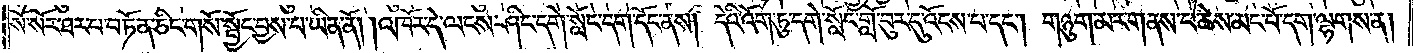སོ་སོར་ཐར་པ་བཏོན་ཅིང་གསོ་སྦྱོང་བྱས་པ་ཡིན་ནོ། །འཁོར་དེ་ལངས་ཤིང་དགེ་སློང་དག་དོང་ནས། དེའི་འོག་ཏུ་དགེ་སློང་གློ་བུར་དུ་འོངས་པ་དང༌། གཉུག་མར་གནས་པ་ཆེས་མང་པོ་དག་ལྷགས་ན།
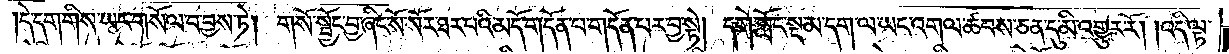།དེ་དག་གིས་ཡང་གསོལ་བ་བྱས་ཏེ། གསོ་སྦྱོང་བྱ་ཞིང་སོ་སོར་ཐར་པའི་མདོ་གདོན་པ་གདོན་པར་བྱ་སྟེ། དགེ་སློང་སྔ་མ་དག་ལ་ཡང་འགལ་ཚབས་ཅན་དུ་མི་འགྱུར་རོ། །འདི་ལྟ་
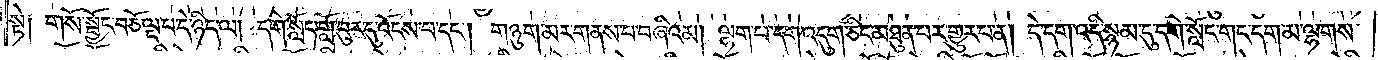སྟེ༑ གསོ་སྦྱོང་བཅོ་ལྔ་པ་དེ་ཉིད་ལ། དགེ་སློང་གློ་བུར་དུ་འོངས་པ་དང༌། གཉུག་མར་གནས་པ་བཞིའམ། ལྷག་པ་དག་འདུག་ཅིང་མཐུན་པར་གྱུར་པ་ན། དེ་དག་འདི་སྙམ་དུ་དགེ་སློང་གང་དག་མ་ལྷགས་
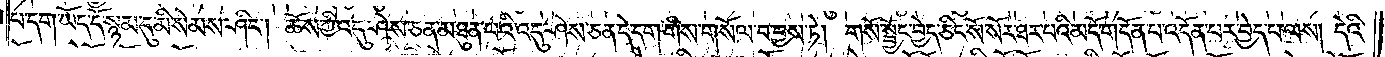པ་དག་ཡོད་དོ་སྙམ་དུ་མི་སེམས་ཤིང༌། ཆོས་ཀྱི་འདུ་ཤེས་ཅན་མཐུན་པའི་འདུ་ཤེས་ཅན་དེ་དག་གིས་གསོལ་བ་བྱས་ཏེ། གསོ་སྦྱོང་བྱེད་ཅིང་སོ་སོར་ཐར་པའི་མདོ་གདོན་པ་འདོན་པར་བྱེད་པ་ལས། དེའི་
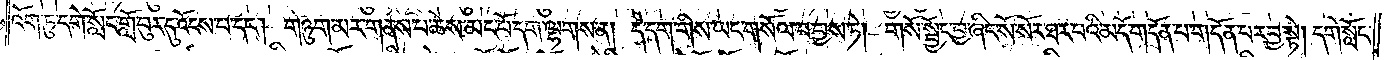འོག་ཏུ་དགེ་སློང་གློ་བུར་དུ་འོངས་པ་དང༌། གཉུག་མར་གནས་པ་ཆེས་མང་པོ་དག་ལྷགས་ན། དེ་དག་གིས་ཡང་གསོལ་བ་བྱས་ཏེ། གསོ་སྦྱོང་བྱ་ཞིང་སོ་སོར་ཐར་པའི་མདོ་གདོན་པ་གདོན་པར་བྱ་སྟེ། དགེ་སློང་
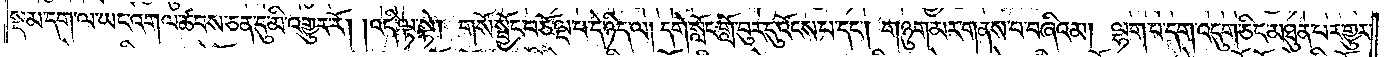སྔ་མ་དག་ལ་ཡང་འགལ་ཚབས་ཅན་དུ་མི་འགྱུར་རོ། །འདི་ལྟ་སྟེ། གསོ་སྦྱོང་བཅོ་ལྔ་པ་དེ་ཉིད་ལ། དགེ་སློང་གློ་བུར་དུ་འོངས་པ་དང༌། གཉུག་མར་གནས་པ་བཞིའམ། ལྷག་པ་དག་འདུག་ཅིང་མཐུན་པར་གྱུར་
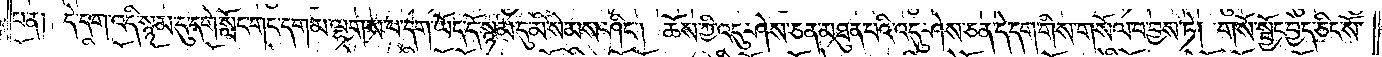པ་ན། དེ་དག་འདི་སྙམ་དུ་དགེ་སློང་གང་དག་མ་ལྷགས་པ་དག་ཡོད་དོ་སྙམ་དུ་མི་སེམས་ཤིང༌། ཆོས་ཀྱི་འདུ་ཤེས་ཅན་མཐུན་པའི་འདུ་ཤེས་ཅན་དེ་དག་གིས་གསོལ་བ་བྱས་ཏེ། གསོ་སྦྱོང་བྱེད་ཅིང་སོ་
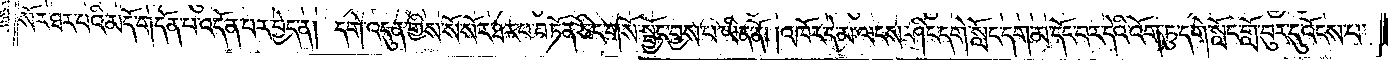སོར་ཐར་པའི་མདོ་གདོན་པ་འདོན་པར་བྱེད་ན། དགེ་འདུན་གྱིས་སོ་སོར་ཐར་པ་བཏོན་ཅིང་གསོ་སྦྱོང་བྱས་པ་ཡིན་ནོ། །འཁོར་དེ་མ་ལངས་ཤིང་དགེ་སློང་དག་མ་དོང་བར་དེའི་འོག་ཏུ་དགེ་སློང་གློ་བུར་དུ་འོངས་པ་
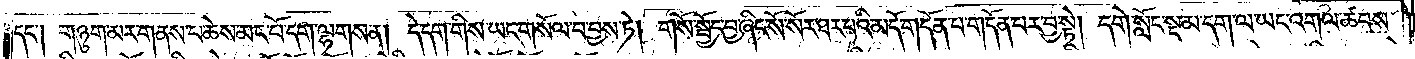དང༌། གཉུག་མར་གནས་པ་ཆེས་མང་པོ་དག་ལྷགས་ན། དེ་དག་གིས་ཡང་གསོལ་བ་བྱས་ཏེ། གསོ་སྦྱོང་བྱ་ཞིང་སོ་སོར་ཐར་པའི་མདོ་གདོན་པ་གདོན་པར་བྱ་སྟེ། དགེ་སློང་སྔ་མ་དག་ལ་ཡང་འགལ་ཚབས་
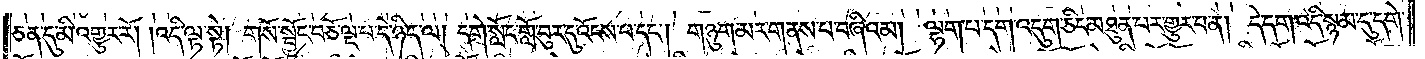ཅན་དུ་མི་འགྱུར་རོ། །འདི་ལྟ་སྟེ། གསོ་སྦྱོང་བཅོ་ལྔ་པ་དེ་ཉིད་ལ། དགེ་སློང་གློ་བུར་དུ་འོངས་པ་དང༌། གཉུག་མར་གནས་པ་བཞིའམ། ལྷག་པ་དག་འདུག་ཅིང་མཐུན་པར་གྱུར་པ་ན། དེ་དག་འདི་སྙམ་དུ་དགེ་
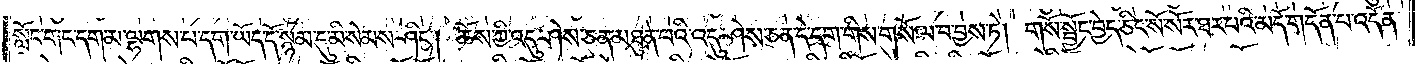སློང་གང་དག་མ་ལྷགས་པ་དག་ཡོད་དོ་སྙམ་དུ་མི་སེམས་ཤིང༌། ཆོས་ཀྱི་འདུ་ཤེས་ཅན་མཐུན་པའི་འདུ་ཤེས་ཅན་དེ་དག་གིས་གསོལ་བ་བྱས་ཏེ། གསོ་སྦྱོང་བྱེད་ཅིང་སོ་སོར་ཐར་པའི་མདོ་གདོན་པ་འདོན་
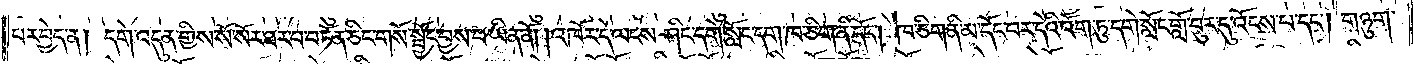པར་བྱེད་ན། དགེ་འདུན་གྱིས་སོ་སོར་ཐར་བ་བཏོན་ཅིང་གསོ་སྦྱོང་བྱས་པ་ཡིན་ནོ། །འཁོར་དེ་ལངས་ཤིང་དགེ་སློང་དག་ཁ་ཅིག་ནི་དོང༌། ཁ་ཅིག་ནི་མ་དོང་བར་དེའི་འོག་ཏུ་དགེ་སློང་གློ་བུར་དུ་འོངས་པ་དང༌། གཉུག་
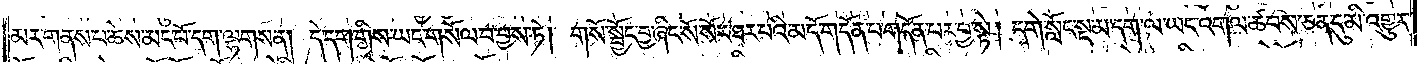མར་གནས་པ་ཆེས་མང་པོ་དག་ལྷགས་ན། དེ་དག་གིས་ཡང་གསོལ་བ་བྱས་ཏེ། གསོ་སྦྱོང་བྱ་ཞིང་སོ་སོར་ཐར་པའི་མདོ་གདོན་པར་བྱ་སྟེ། དགེ་སློང་སྔ་མ་དག་ལ་ཡང་འགལ་ཚབས་ཅན་དུ་མི་འགྱུར་
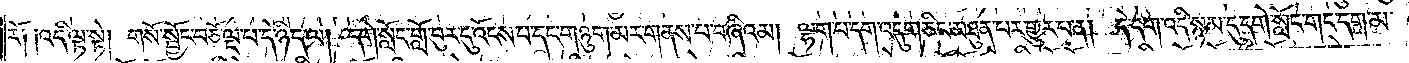རོའདི༏ ༏འདི་སྟེ། གསོ་སྦྱོང་བཅོ་ལྔ་པ་དེ་ཉིད་ལ། དགེ་སློང་གློ་བུར་དུ་འོངས་པ་དང་གཉུག་མར་གནས་པ་བཞིའམ། ལྷག་པ་དག་འདུག་ཅིང་མཐུན་པར་གྱུར་པ་ན། དེ་དག་འདི་སྙམ་དུ་དགེ་སློང་གང་དག་མ་
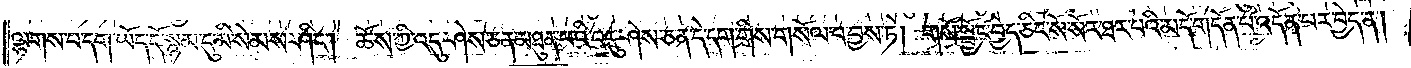ལྷགས་པ་དག་ཡོད་དོ་སྙམ་དུ་མི་སེམས་ཤིང༌། ཆོས་ཀྱི་འདུ་ཤེས་ཅན་མཐུན་པའི་འདུ་ཤེས་ཅན་དེ་དག་གིས་གསོལ་བ་བྱས་ཏེ། གསོ་སྦྱོང་བྱེད་ཅིང་སོ་སོར་ཐར་པའི་མདོ་གདོན་པ་འདོན་པར་བྱེད་ན།
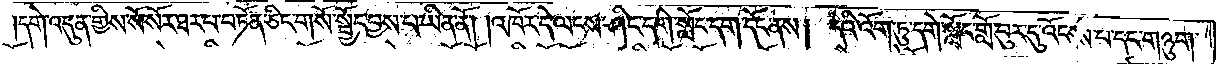དགེ་འདུན་གྱིས་སོ་སོར་ཐར་པ་བཏོན་ཅིང་གསོ་སྦྱོང་བྱས་པ་ཡིན་ནོ། །འཁོར་དེ་ལངས་ཤིང་དགེ་སློང་དག་དོང་ནས། དེའི་འོག་ཏུ་དགེ་སློང་གློ་བུར་དུ་འོངས་པ་དང་གཉུག་
